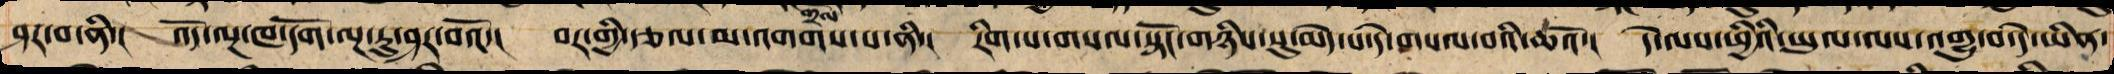ཤར་བ་ནི་། འོད་ལྔ་ཁ་དོག་ལྔ་རུ་ཤར་བའོ་། བར་གྱི་རྩལ་མ་འགགས་པ་ནི་། རིག་པ་གསལ་སྟོང་གཉིས་སུ་མེད་པ་དེ་གསལ་བའི་ཆའོ་། དེ་ལས་ཕྱིའི་ཡུལ་ལས་འགྱུ་བ་དེ་ཡིན་
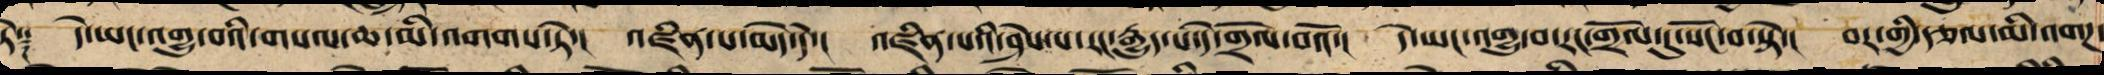ཏེ༑ དེ་ཡང་འགྱུ་བའི་གསལ་ཆ་མི་འགག་ཏེ་། འཛིན་པ་མེད་དེ་། འཛིན་པའི་ཤེས་པ་རང་རྒྱུད་པ་དེ་གྲོལ་བའོ་། དེ་ཡང་འགྱུ་བ་རང་གྲོལ་དུ་སོང་བ་སྟེ་། བར་གྱི་རྩལ་མི་འགཌ་
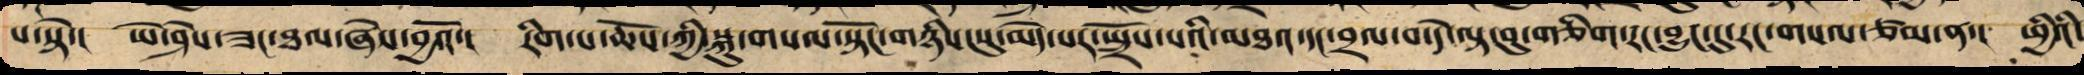པ་སྟེ་། ཡེ་ཤེས་ཟང་ཐལ་ཞེས་བྱའོ་། རིག་པ་ཆོས་ཀྱི་སྐུ་གསལ་སྟོང་གཉིས་སུ་མེད་པར་སྤྲོས་པའི་མཐའ་དང་བྲལ་བ་དེ་ལྟ་བུ་གཅིག་རང་བྱུང་དུ་རང་གསལ་ཙམ་ན་། ཕྱིའི་
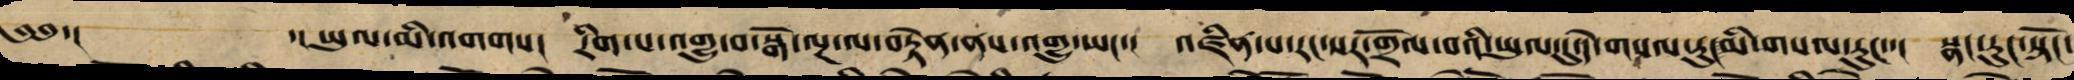༄༅་། ་། ཡུལ་མི་འགག་། རིག་པ་འགྱུ་བ་སྒོ་ལྔ་ལ་བརྟེན་ནས་འགྱུ་ཡང་། འཛིན་པ་རང་སར་གྲོལ་བའི་ཡུལ་དེ་གསལ་རུ།་མི་གསལ་རུང་་། སྣང་རུང་སྟོང་
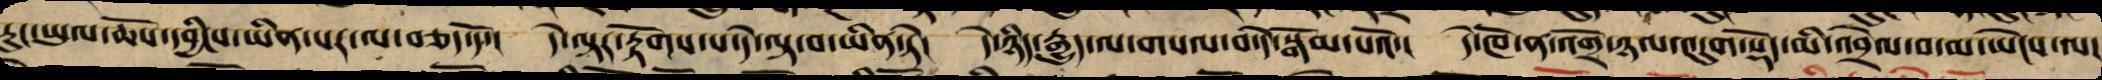རུང་ཡུལ་ཆོས་དབྱིངསཡིན་པར་ལ་བཅད་དོ་། དེ་ལྟར་རྟོགས་པ་དེ་ལྟ་བ་ཡིན་ཏེ། དེ་ཉིད་རྒྱུད་ལ་གསལ་བ་དེ་བསྒོམ་པའོ་། དེ་ཁོ་ན་འགྲོ་ཉལ་འདུག་སྡོད་མི་འབྲེལ་བར་མ་ཡེངས་ལ་
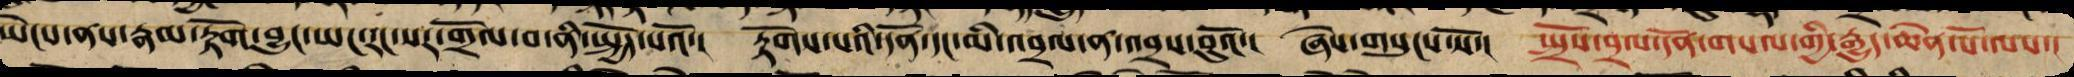ཡེངས་ནས་རྣམ་རྟོག་བྱུང་ཡང་རང་སར་གྲོལ་བ་ནི་སྤྱོད་པའོ་། རྟོགས་པའི་དོན་དང་མི་འབྲལ་ན་འབྲས་བུའོ་། ཞེས་གསུངས་སོ་། སྤྲོས་བྲལ་དོན་གསལ་གྱི་རྒྱུད་ཆེན་པོ་ལས་།
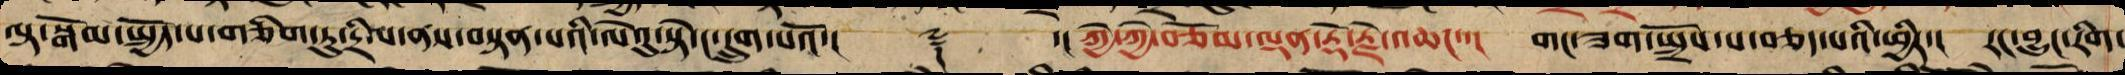ལྟ་སྒོམ་སྤྱོད་པ་གཅིག་ཏུ་དྲིལ་ནས་བསྟན་པའི་ལེའུ་སྟེ་ང་དྲུག་པའོ་།། ༈ ་། ཀྱེ་ཀྱེ་བཅོམ་ལྡན་རྡོ་རྗེ་འཆང་་། གང་ཟག་སྤྲོས་པ་བཅད་པའི་ཕྱིར་། རང་བྱུང་རིག་
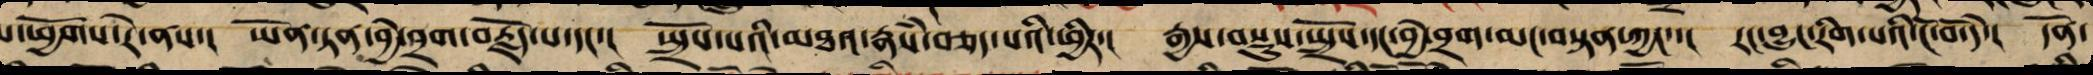པ་ཕྱོགས་རེ་ནས་། ཡོན་ཏན་བྱེ་བྲག་བརྗོད་པ་དང་། སྤྲོས་པའི་མཐའ་རྣཾས་བཅད་པའི་ཕྱིར་། རྒྱས་བསྡུས་སྤྲོས་དང་བྱེ་བྲག་མང་བསྟན་ཀྱང་་། རང་བྱུང་རིག་པའི་ངོ་བོ་དེ་། དོན་
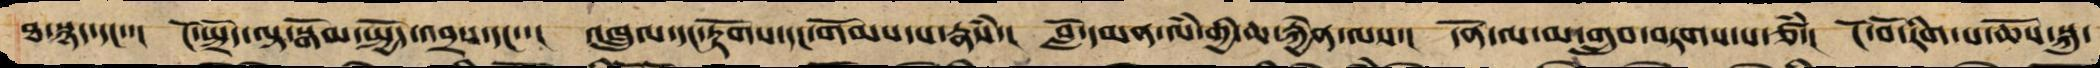ཐ་སྙད་དང་་། ངོ་སྤྲོད་ལྟ་སྒོམ་སྤྱོད་འབྲས་དང་་། འཁྲུལ་དང་རྟོགས་དང་གོམས་པ་རྣཾས་། བློ་དམན་ལཾ་གྱི་ཆ་རྐྱེན་ལས་། དོན་ལ་མ་གྲུབ་བཏགས་པ་ཙཾ་། ངོ་བོ་རིག་པ་ཆོས་སྐུ་
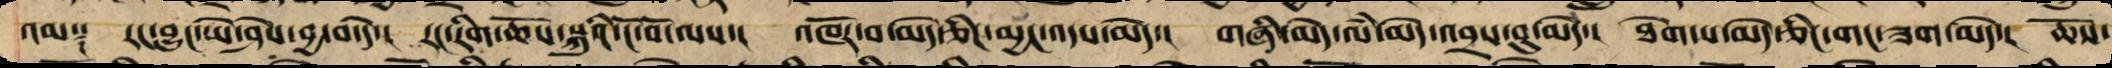འམ༑ རང་བྱུང་ཡེ་ཤེས་བྱ་བ་དེ་། རང་རིག་ཆོས་སྐུའི་ངོ་བོ་ལས་། འཁོར་བ་མེད་ཅིང་མྱང་འདས་མེད་། གཞི་མེད་ལཾ་མེད་འབྲས་བུ་མེད་། ཐེག་པ་མེད་ཅིང་གང་ཟག་མེད་། ཆོས་
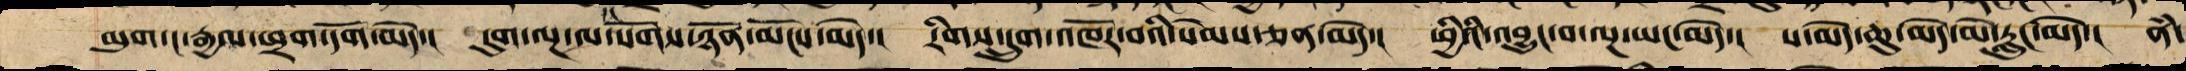མུག་ང་རྒྱལ་ཕྲག་དོག་མེད་། དུག་ལྔ་ལ་སོགས་ཉོན་མོངས་མེད་། རིགས་དྲུག་འཁོར་བའི་སེམས་ཅན་མེད་། ཕྱི་ཡི་འབྱུང་བ་ལྔ་ཡང་མེད་། ས་མེད་ཆུ་མེད་མེ་རླུང་མེད་། ནཾ་
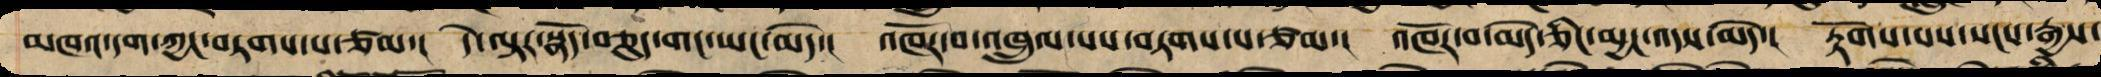མཁའ་དག་ཀྱང་བཏགས་པ་ཙམ་། དེ་ལྟར་སྣོད་བཅུད་གང་ཡང་མེད་། འཁོར་བ་འཁྲུལ་པས་བཏགས་པ་ཙམ་། འཁོར་བ་མེད་ཅིང་མྱང་འདས་མེད་། རྟོགས་པས་སངས་རྒྱས་
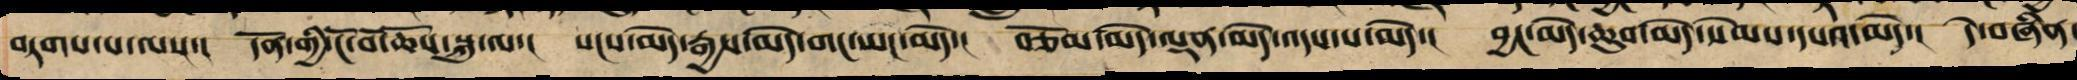བཏགས་པ་ལས་། དོན་གྱི་ངོ་བོ་ཆོས་སྐུ་ལ་། སངས་མེད་རྒྱས་མེད་གང་ཡང་མེད་། བཅོམ་མེད་ལྡན་མེད་འདས་པ་མེད་། བྱང་མེད་ཆུབ་མེད་སེམས་དཔའ་མེད་། དེ་བཞིན་
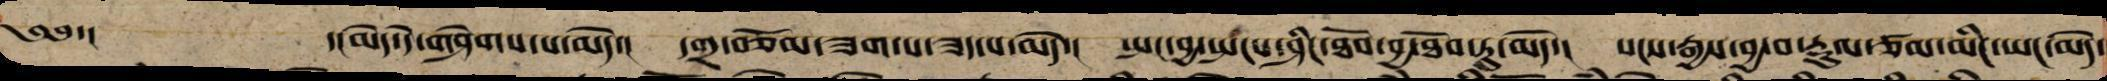༄༅་། ་།མེད་དེ་གཤེགས་པ་མེད་། དགྲ་བཅོམ་ཟག་པ་ཟད་པ་མེད་། སྤང་བྱ་སྤང་ཞིང་ཐོབ་བྱ་ཐོབ་ཏུ་མེད་། སངས་རྒྱས་བྱ་བ་རྡུལ་ཙམ་མིང་ཡང་མེད་
